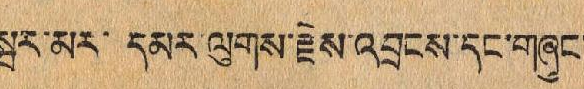སྤར་མར་ དམར་ལུགས་རྗེས་འབྲངས་དང་གཞུང་
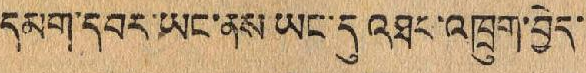དམག་དབར་ཡང་ནས་ཡང་དུ་འཐང་འཁྲུག་བྱེད་
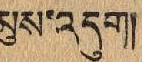མུས་འདུག།
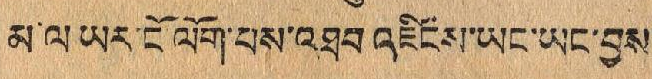མ་ལ ཡར་ངོ་ལོག་པས་འཐབ་འཛིངས་ཡང་ཡང་བྱས་
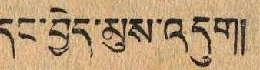དང་བྱེད་མུས་འདུག།
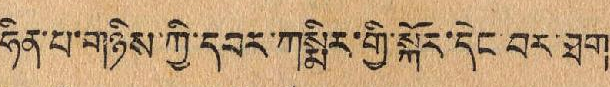ཧིན་པ་གཉིས་ཀྱི་དབར་ཀསྨིར་གྱི་སྐོར་དེང བར་ཐག་
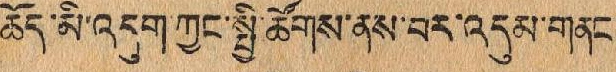ཆོད་མི་འདུག ཀྱང་སྤྱི་ཚོགས་ནས་བར་འདུམ་གནང་
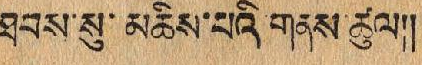ཐབས་སུ་མཆིས་པའི གནས ཚུལ།།
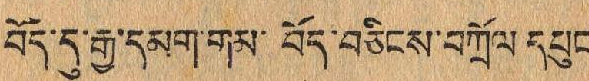བོད་དུ་རྒྱ་དམག་གམ་ བོད་བཅིངས་བཀྲོལ དཔུང་
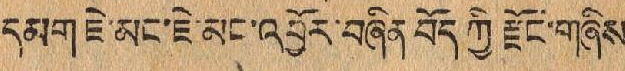དམག་ཇེ་མང་ཇེ་མང་འབྱོར་བཞིན་བོད་ཀྱི་རྫོང་གཞིས་
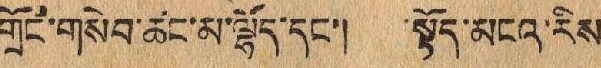གྲོང་གསེབ་ཚང་མ་ལྷོད་དང་། སྟོད་མངའ་རིས་
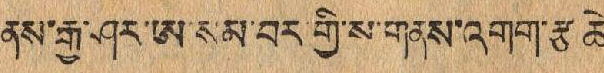ནས་རྒྱ་ཤར་ཨ་སམ་བར་གྱི་ས་གནས་འགག་རྩ ཆེ་
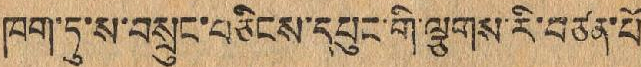ཁག་ཏུ་ས་བསྲུང་བཅིངས་དཔུང་གི་ལྕགས་རི་བཙན་པོ་
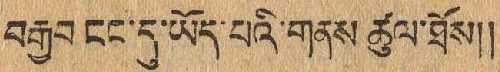བརྒྱབ ངང་དུ་ཡོད་པའི་གནས ཚུལ་ཐོས།།
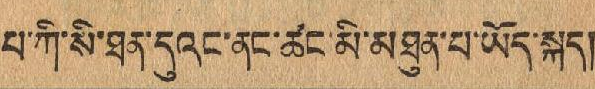པ་ཀི་སི་ཐན་དུའང་ནང་ཚང་མི་མཐུན་པ་ཡོད་སྐད།
